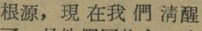根源，現 在我 們清醒
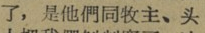了，是他們同牧主、头
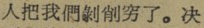人把我們剝削穷了。决
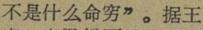不是什么命穷”。据王
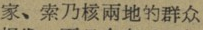家、索乃核兩地的群众
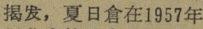揭发，夏日倉在1957年
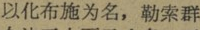以化布施为名，勒索群
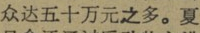众达五十万元之多。夏
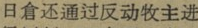日倉还通过反动牧主进
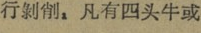行剝削，凡有四头牛或
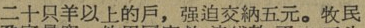二十只羊以上的戶，强迫交納五元。牧民
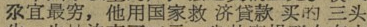尕宜最穷，他用国家救 济貸款 买的三头
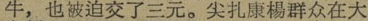牛，也被迫交了三元。尖扎康楊群众在大
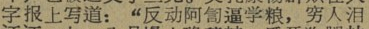字报上写道：“反动阿訇逼学粮，穷人泪
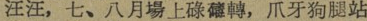汪汪，七、八月場上碌碡轉，爪牙狗腿站
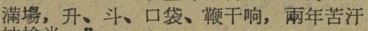滿場，升、斗、口袋、鞭干响，兩年苦汗
